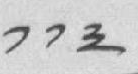༡༡༣
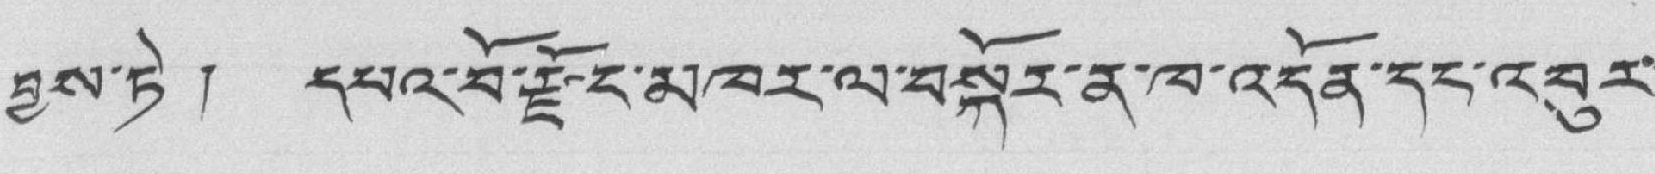བྱས་ཏེ ། དཔའ་བོ་རྫོང་མཁར་ལ་བསྐོར་ན་ཁ་འདོན་དང་འབུར་
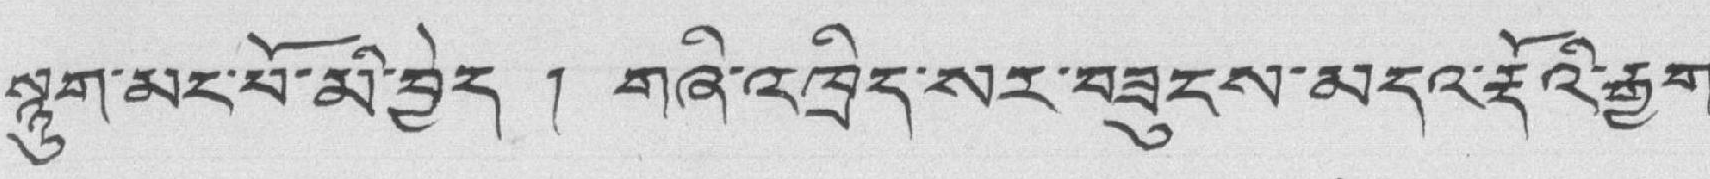སྙུག་མང་པོ་མི་བྱེད ། གཞི་འཁྲིད་སར་བཟུངས་མདའ་རྡོའི་རྒྱག་
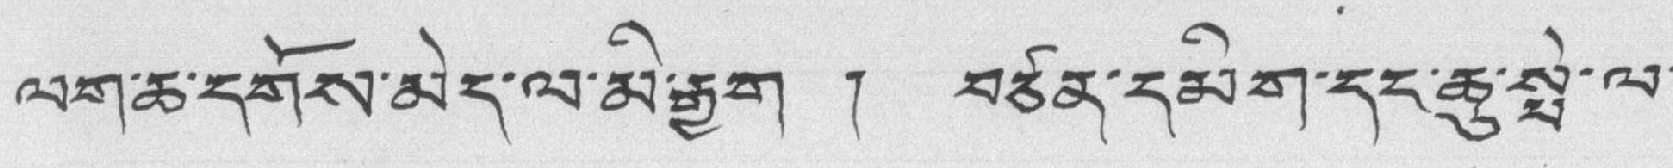ལག་ཆ་དགོས་མེད་ལ་མི་རྒྱག ། བཙན་དམིག་དང་ཆུ་སསྤེ་ལ་
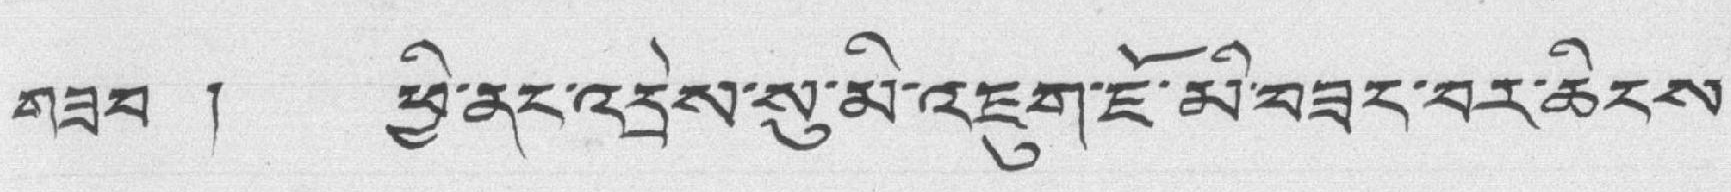གཟབ ། ཕྱི་ནང་འདྲེས་སུ་མི་འཇུག་ཇོ་མི་བཟང་བར་ཆིངས་
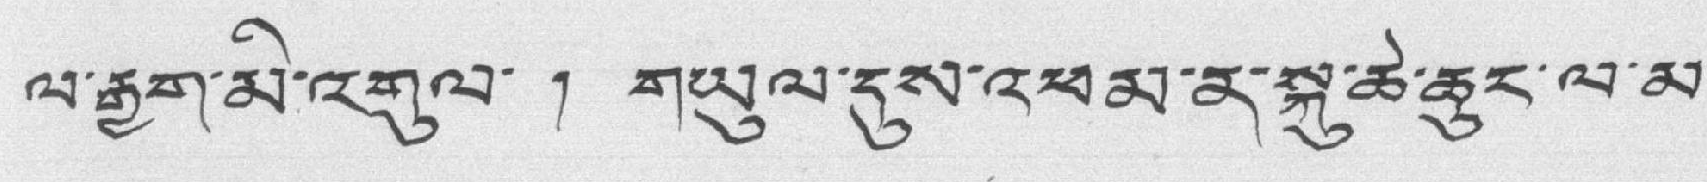ལ་རྒྱུག་མི་འགུལ་ ། གཡུལ་དུས་འཕམ་ན་སྐུ་ཆེ་ཆུང་ལ་མ་
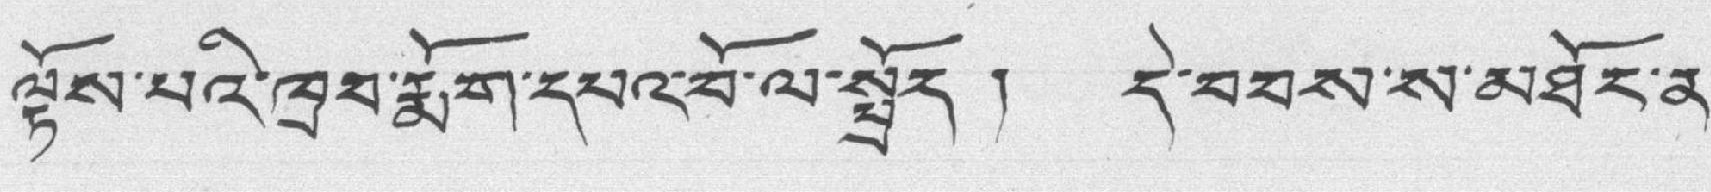ལྟོས་པའི་ཁྲབ་རྨོག་དཔའ་བོ་ལ་སྤྲོད ། དེ་བབས་ས་མཐོང་ན་
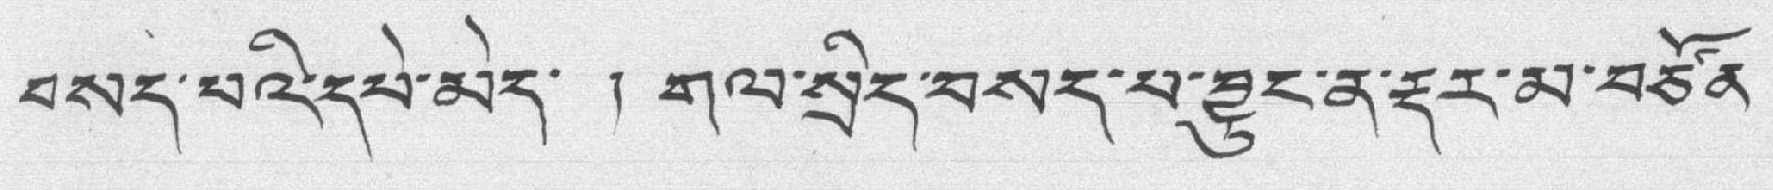བསད་པའི་དཔེ་མེད་ ། གལ་སྲིད་བསད་པ་བྱུང་ན་རྡར་མ་བཙོན་
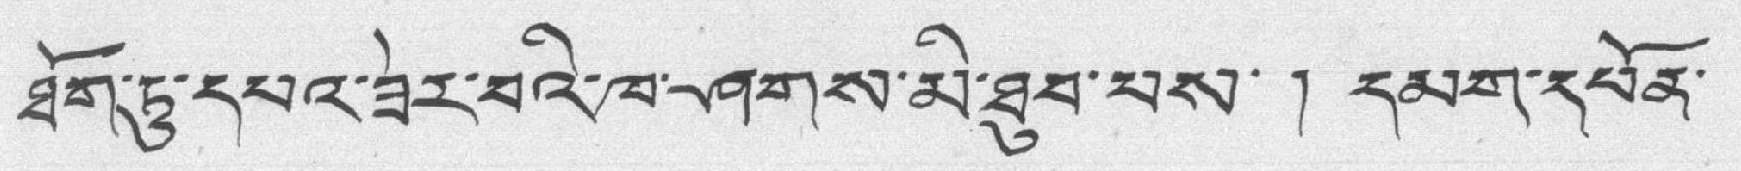ཐོག་ཏུ་དཔའ་ཟེར་བའི་ཁ་ཤགས་མི་ཐུབ་པས་ ། དམག་དཔོན་
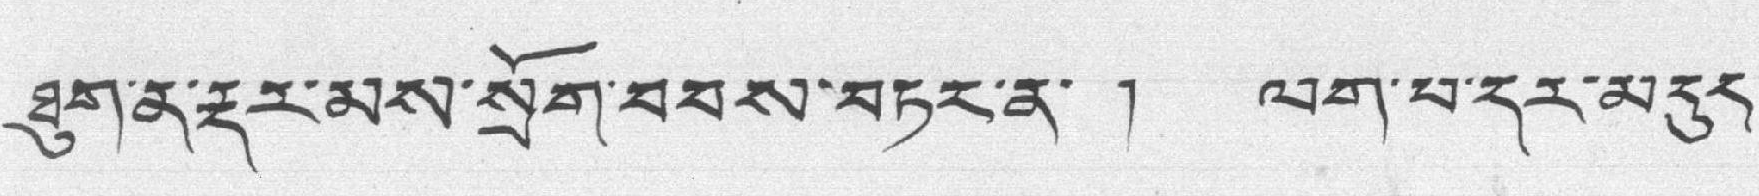ཐུག་ན་རྡར་མས་སྲོག་བབས་བཏར་ན་ ། ལག་པ་དར་མདུད་
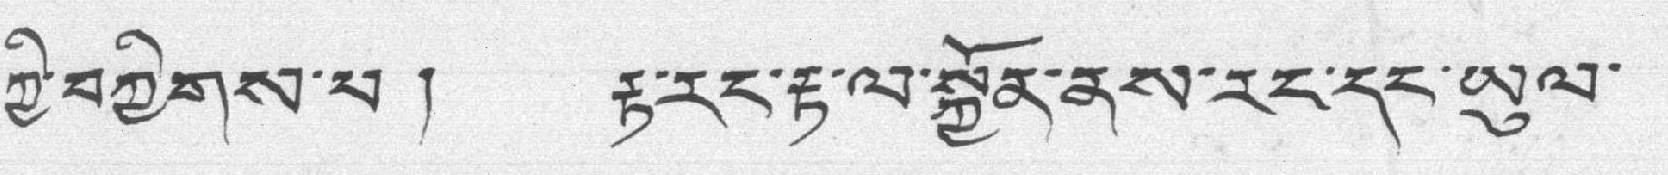ཀྱི་བཀྱིགས་པ ། རྟ་རང་རྟ་ལ་སྐྱོན་ནས་རང་དང་ཡུལ་
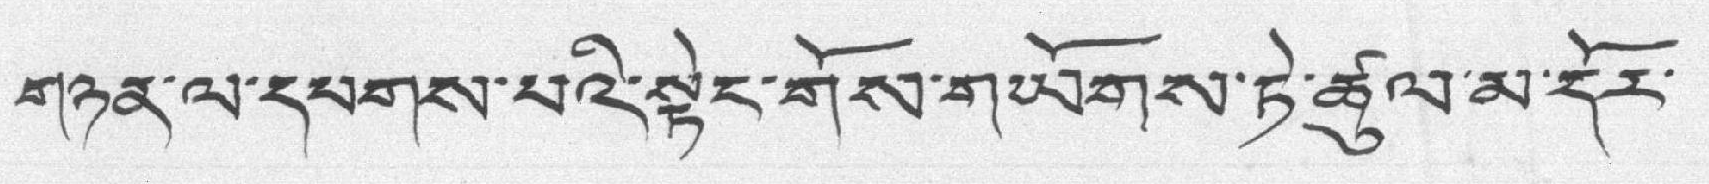གཉན་ལ་དམགས་པའི་སྟེང་གོས་གཡོགས་ཏེ་ཚུལ་མ་དོར་
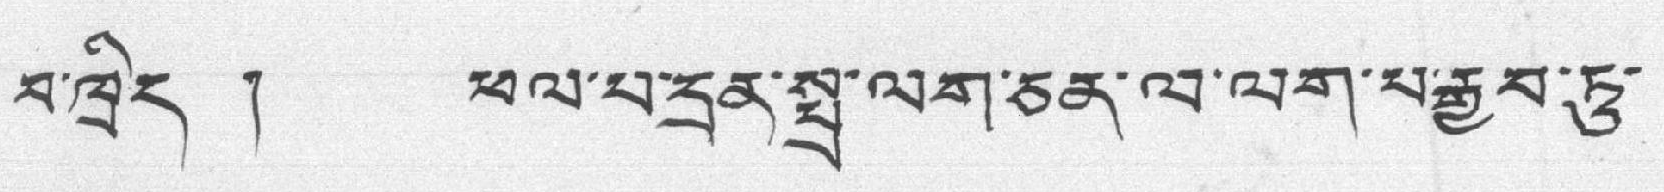བ་ཁྲིད ། ཕལ་པ་དྲན་སྤྲ་ལག་ཅན་ལ་ལག་མ་རྒྱབ་ཏུ་
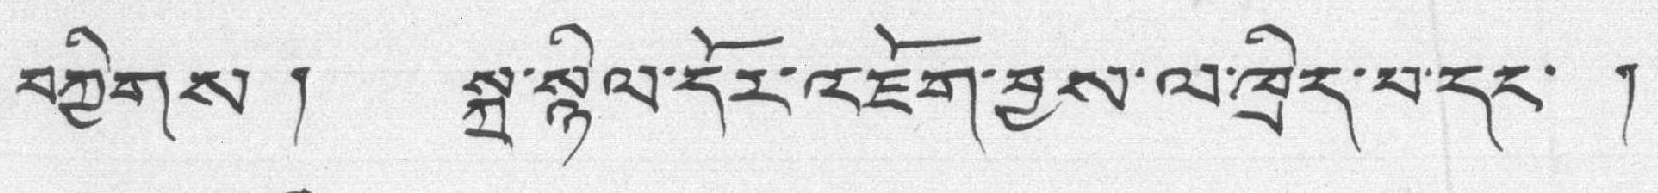བཀྱིགས ། སྐྲ་སྙིལ་དོར་འཇོག་བྱས་ལ་ཁྲིད་པ་དང་ །
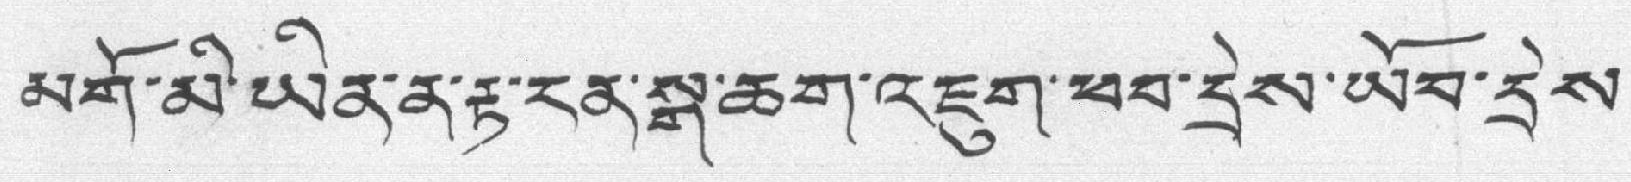མགོ་མི་ཡིན་ན་རྟ་ངན་སྒ་ཆག་འཇུག་ཕབ་དྲེས་ཡོབ་དྲེས་
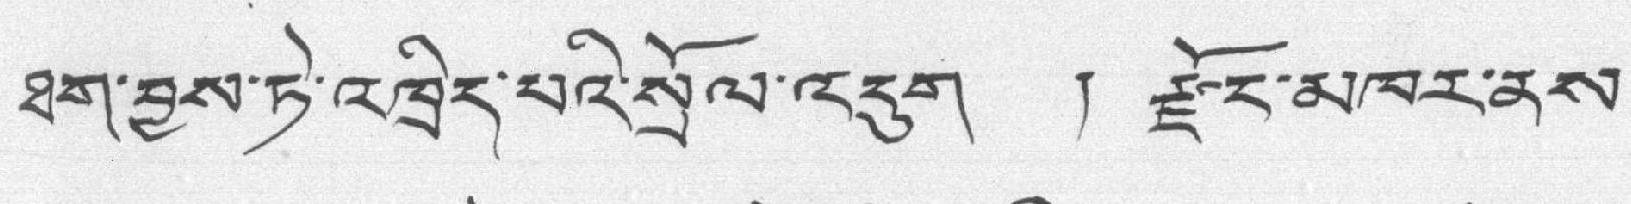ཐག་བྱས་ཏེ་འཁྲིད་པའི་སྲོལ་འདུག ། རྗོང་མཁར་ནས་
